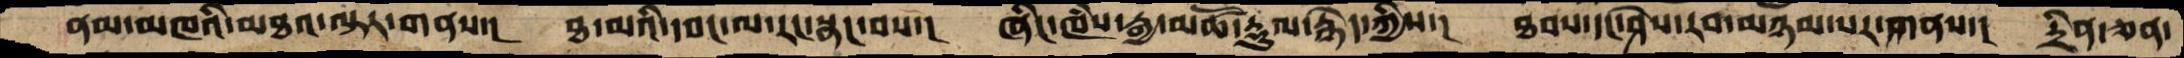ནམ་མཁའི་མཐའ་ལྟར་གནས་།  ཐ་མའི་དབང་ལ་རང་སྣང་བས་།   ཞིང་ཁཾས་རྒྱ་མཚོ་རྡུལ་རྙེད་ཀྱིས་།   ཐབས་དང་ཤེས་རབ་མཉམ་པར་གནས་།   དྲིན་ཅན་
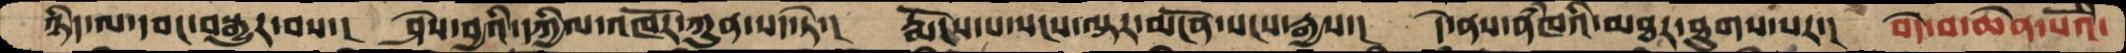ཉིད་ལ་དབང་བསྒྱུར་བས་།  ཤེས་བྱའི་དཀྱིལ་འཁོར་ཀུན་སད་ཏེ་།  རྨོངས་པ་སངས་ལྟར་མངོན་སངས་རྒྱས་།   དེ་ནས་ནཾཁའི་མཐར་ཐུགས་པར་།   བདེ་བ་ཆེན་པོའི་
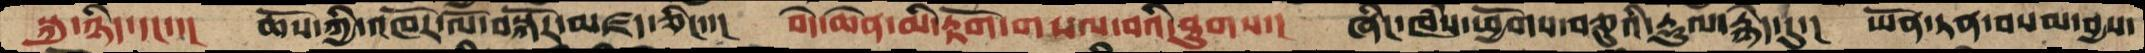སྐུ་ཉིད་དང་་།   ཆོས་ཀྱི་འཁོར་ལོ་བསྐོར་མཛད་ཅིང་་།  བདེ་ཆེན་མི་རྟོག་གསལ་བའི་ཐུགས་།   ཞིང་ཁཾས་ཕྱོགས་བཅུའི་རྡུལ་རྙེད་དུ་།   ཡོན་ཏན་བསམ་བྱས་
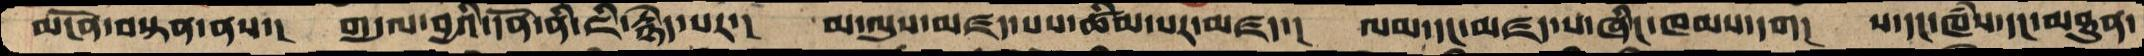མངོན་བསྟན་ནས་།   གདུལ་བྱའི་དོན་ནི་ཇི་རྙེད་པར་།   མ་ལུས་མཛད་པས་ཚིམ་པར་མཛད་།   ལམ་དང་མཛད་པ་ཞིང་ཁམས་དག།   ས་དང་ཁཾས་དང་མཐུན་
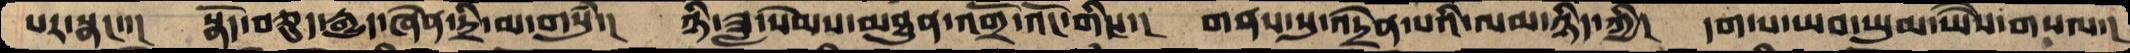པར་སྣང་་།  སྣོད་བཅུད་རྒྱུད་ཞེན་དྲི་མ་གསུཾ་།   ཉི་ཟླ་སེམས་མཐུན་འགྲོ་འོང་གིས་།   གནས་སུ་འདྲེན་པའི་ལམ་ཉིད་ཀྱི།  དག་པ་ཡབ་ཡུམ་ཡཻས་གསལ་།
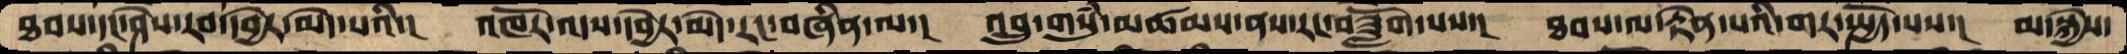ཐབས་དང་ཤེས་རབ་དབྱེར་མེད་པའི།    འཁོར་ལས་དབྱེར་མེད་རང་བཞིན་ལ་།  འབྲུ་གསུཾ་མཚམས་ནས་རང་བཟློག་པས་།   ཐབས་ལ་རྟེན་པའི་གར་སྤྱོད་པས་།   མ་སྐྱེས་
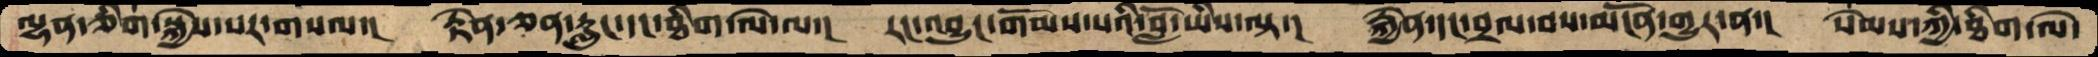ལྷན་ཅིག་སྐྱེས་པར་གསལ་།   རྟེན་ཅན་རླུང་དང་ཐིག་ལེ་ལ་།  རང་འབྱུང་གོམས་པའི་བློ་ཡིས་ལྟ་།   རྐྱེན་དང་བྲལ་བས་མངོན་གྱུར་ན་།   སེམས་ཀྱི་ཐིག་ལེ་
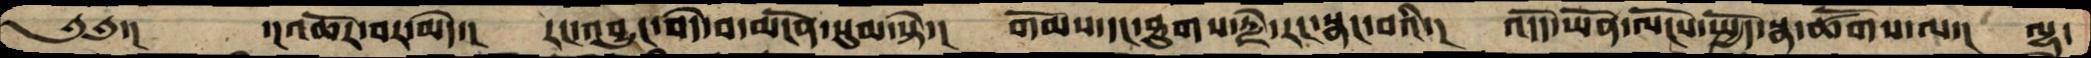༄༅་།          ་།འཆོར་བར་མེད་།   རང་འབྱུང་བདེ་བ་མངོན་སུམ་སྟེ་།  གོམས་དང་ཐུགས་རྗེ་རང་སྣང་བའི་།   འདོད་ཡོན་ལོངས་སྤྱོད་སྣ་ཚོགས་ལ་།  ལྷ་
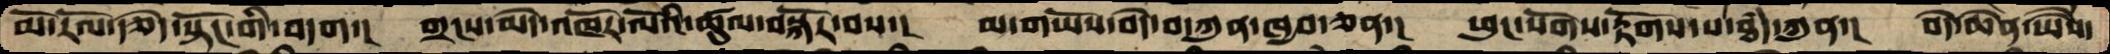མོ་རོལ་རྩེད་སྟོང་གི་བདག་།   གྲངས་མེད་འཁོར་ལོའི་ཚུལ་བསྐོར་བས་།   མ་གཡོས་བདེ་བ་ཀུན་ཁྱབ་ཅན་།  ཕུང་སོགས་རྟོགས་པ་ཐཾད་ཀུན་།  བདེ་ཆེན་ཡཻས་
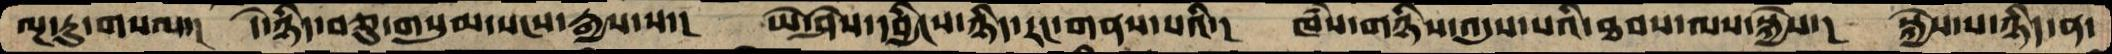ལྔ་རུ་གསལ་།  དེ་ཉིད་བཅུ་གསུམ་སངས་རྒྱས་པ་།  ཡེ་ཤེས་དབྱིངས་ཉིད་རང་གནས་པའི་།  ཁཾས་གཉིས་འདུས་པའི་ཐབས་ལས་སྐྱེས་།  སྐྱེས་པ་ཉིད་ན་
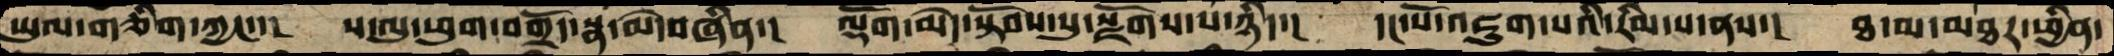ཡུལ་གཅིག་ཀྱང་་།  ས་ལུ་ཕུག་བགྲོད་སྣ་མེ་བཞིན་།  ལྡོག་མེད་སྟོབས་སུ་སྫོགས་པ་ཉིད་།  དང་པོ་འཇུག་པའི་རིམ་པ་ནས་།  ཐ་མ་མཐར་ཕྱིན་
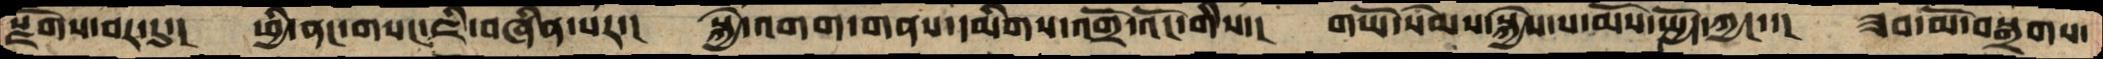སྫོགས་བར་དུ་།  ཕྱི་ནང་གསང་ཇི་བཞིན་པར་།  སྐྱེ་འགག་གནས་དམིགས་འགྲོ་འོང་གིས་།  གཡོ་སེམས་སྐྱེས་པ་མོས་སྤྱོད་ཀྱང་་།  ཟབ་མོ་བསྒྲགས་
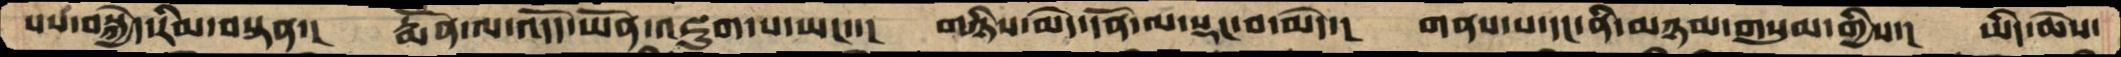པས་བསྐྱེད་རིམ་བསྟན་།  རྨོན་ལ་འདོད་ཡོན་འཇུག་པ་ཡང་་།  མཉིས་མེད་དོན་ལ་སྡང་བ་མེད་།  གནས་པ་དང་ནི་མཉམ་གསུམ་གྱིས་།  ཡིད་ཆེས་
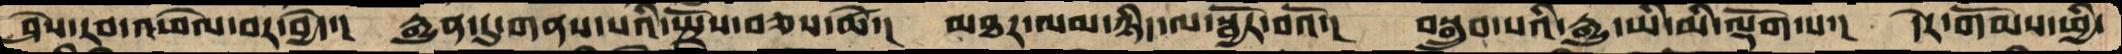ཤེས་རབ་འཕེལ་བར་བྱེད་།  རྒྱུན་དུ་གནས་པའི་སྤྲོས་བཅས་ཚེ་།  མཐར་ལམ་ཉིད་ལ་སྦྱོར་བའོ་།  བསྒྲུབ་པའི་རྒྱུ་ཡི་མི་ལྡོག་པ་།  དེར་གོམས་ཕྱི་
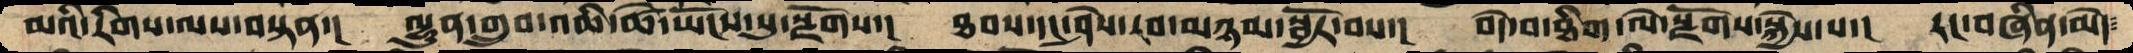མའི་རིགས་ལས་བསྟན་།  ལྷུན་གྲུབ་འཆི་ཚེ་ཡོངས་སུ་སྫོགས་།  ཐབས་དང་ཤེས་རབ་མཉམ་སྦྱོར་བས་།  བདེ་བ་ཐིག་ལེ་སྫོགས་སྐྱེས་པ་།  རང་བཞིན་མེད་
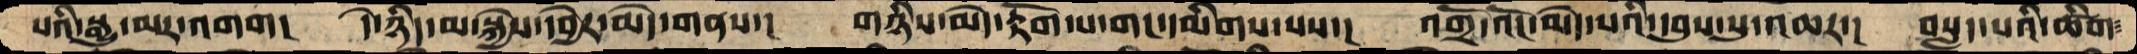པའི་སྒྱུ་མར་འགག།  དེ་ཉིད་མ་སྐྱེས་དབྱེར་མེད་གནས་།  གཉིས་མེད་རྟོག་པ་གང་དམིགས་པས་།  འགྲོ་འོང་མེད་པའི་དབུས་སུ་འཆར་།  བསླད་པའི་ཚིག་
